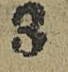3
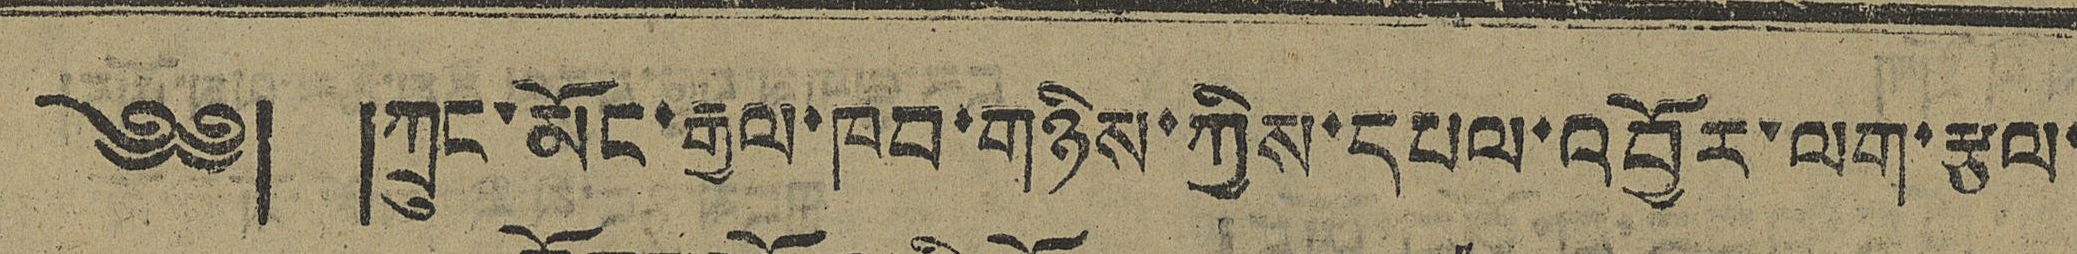༄༅། །ཀྲུང་མོང་རྒྱལ་ཁབ་གཉིས་ཀྱིས་དཔལ་འབྱོར་ལག་རྩལ་
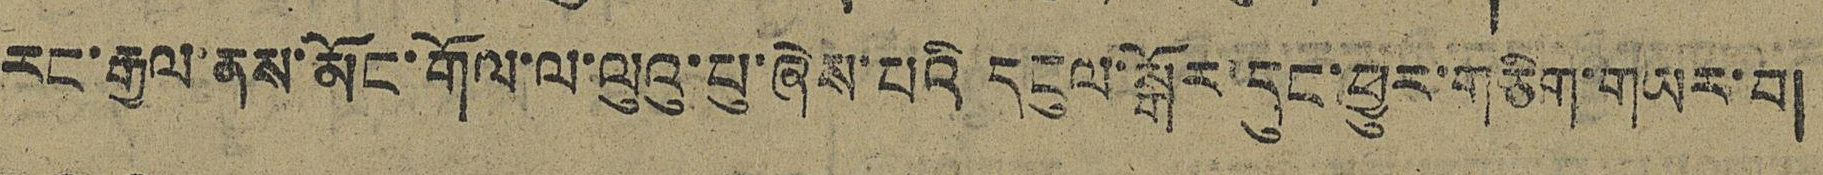རང་རྒྱལ་ནས་མོང་གོལ་ལ་ལུའུ་པུ་ཞེས་པའི་དངུལ་སྒོར་དུང་ཕྱུར་གཅིག་གཡར་བ།
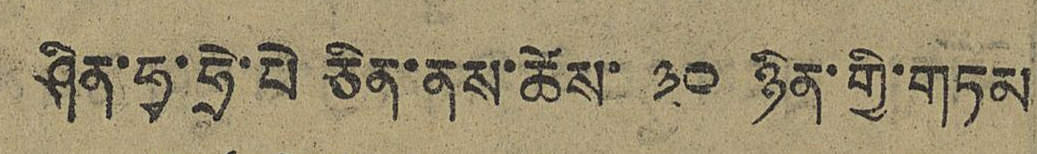ཤིན་ཧྭ་ཧྲེ་པེ ཅིན་ནས་ཚེས་ ༣༠ ཉིན་གྱི་གཏམ་
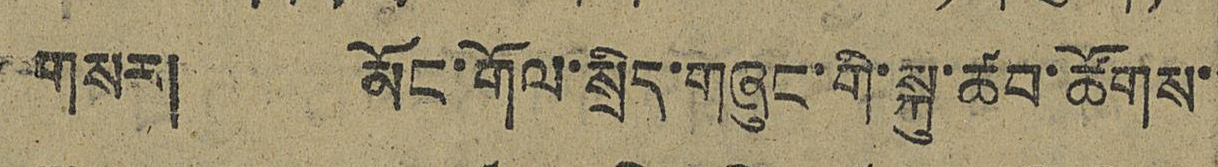གསར། མོང་གོལ་སྲིད་གཞུང་གི་སྐུ་ཚབ་ཚོགས་་
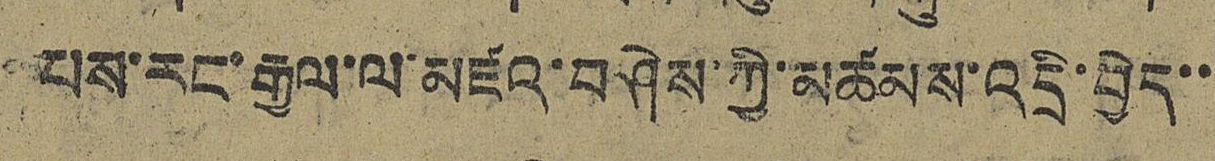པས་རང་རྒྱལ་ལ་མཛའ་བཤེས་ཀྱི་མཚམས་འདྲི་བྱེད་་་
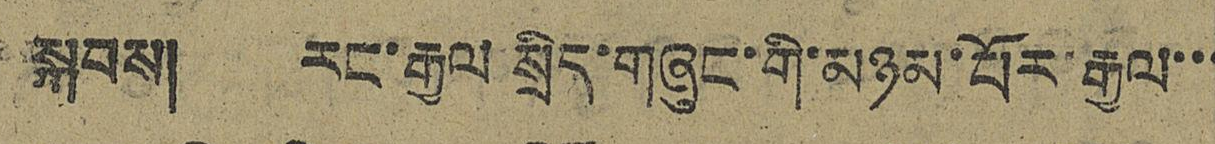སྐབས། རང་རྒྱལ་སྲིད་གཞུང་གི་མཉམ་པོར་རྒྱལ་་་
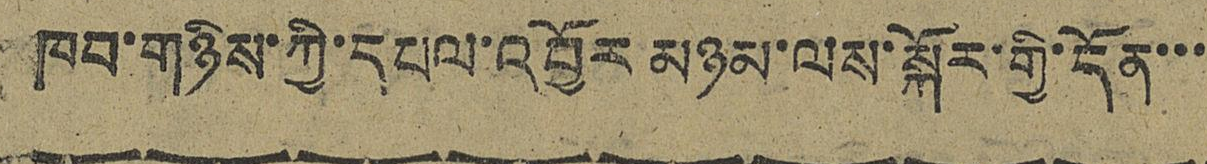ཁབ་གཉིས་ཀྱི་དཔལ་འབྱོར མཉམ་ལས་སྐོར་གྱི་དོན་་་་
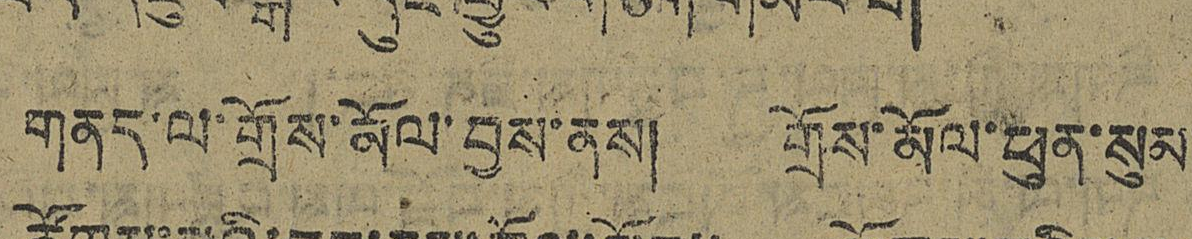གནད་ལ་གྲོས་རྒོལ་བས་ནས། ཐོས་མོལ་ཕྱན་སུམ་
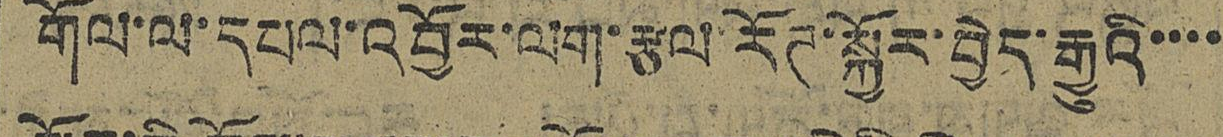གོལ་ལ་དཔལ་འབྱོར་ལག་རྩལ་རོཊ་སྐོར་བྱེད་རྒྱུའི་་་་
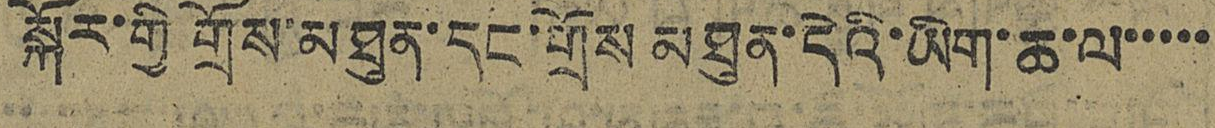སྐོར་གྱི གྲོས་མཐུན་དང་གྲོས མཐུན་དེའི་ཡིག་ཆ་ལ་་་་་
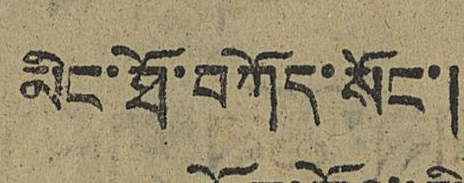མིང་ཐོ་བཀོད་སོང་།
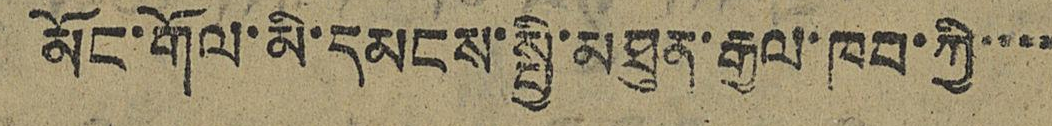མོང་གོལ་མི་དམངས་སྤྱི་མཐུན་རྒྱལ་ཁབ་ཀྱི་་་་
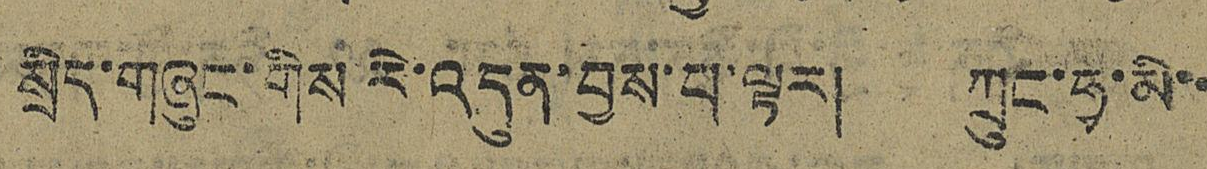སྲིད་གཞུང་གིས་རེ་འདུན་བྱས་པ་ལྟར། ཀྲུང་ཧྭ་མི་་
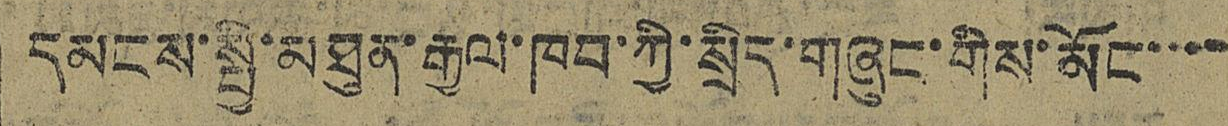དམངས་སྤྱི་མཐུན་རྒྱལ་ཁབ་ཀྱི་སྲིད་གཞུང་གིས་མོང་་་་
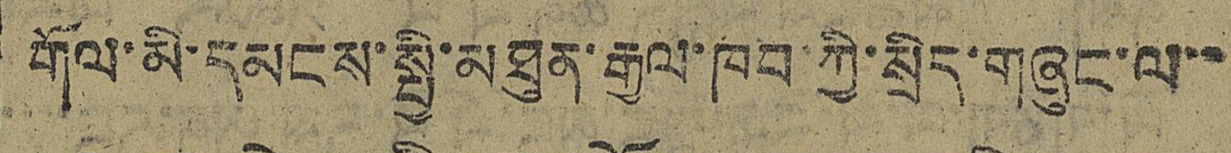རྒོལ་མི་དམངས་སྤྱི་མཐུན་རྒྱལ་ཁབ་ཀྱི་སྲིད་གཞུང་ལ་་
